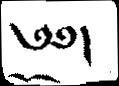༄༅།
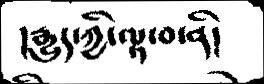།རྒྱུད་ཀྱིལྟ་བ་ནི།
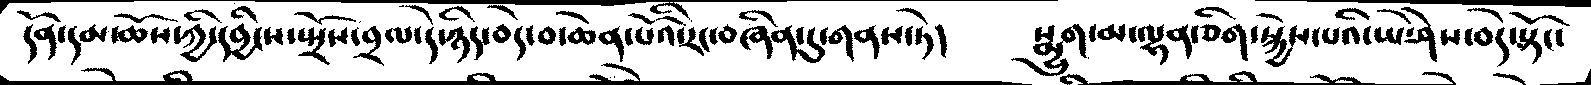དོན་དམ་ཆོས་ཀྱི་དབྱིངས་སྤྲོས་བྲལ་དེ་ཉིད་བདེ་བ་ཆེན་པོའི་རང་བཞིན་དུ་གནས་ཏེ།     སྨྱུག་མ་ལྷན་ཅིག་སྐྱེས་པའི་ཡེ་ཤེས་བདེ་སྟོང་
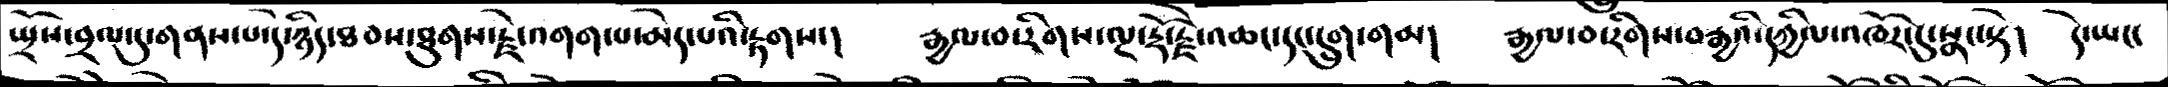སྤྲོས་བྲལ་དུ་གནས་པ་དེ་ཉིད་ཐབས་ཐུགས་རྗེ་འགག་པ་མེད་པའི་རྟགས།     རྒྱལ་བ་རིགས་ལྔ་རྡོ་རྗེ་འཆང་དང་དྲུག་གམ།    རྒྱལ་བ་རིགས་བརྒྱའི་དཀྱིལ་འཁོར་དུ་སྣང་སྟེ།   དེ་ཡང་
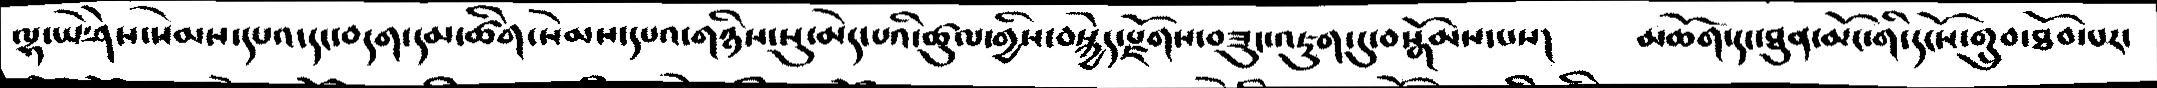ལྷ་ཡེ་ཤེས་སེམས་དཔའ་དང་བདག་དམ་ཚིག་སེམས་དཔའ་གཉིས་སུ་མེད་པའི་ཚུལ་གྱིས་བསྐྱེད་རྫོགས་བཟུང་འཇུག་དུ་བསྒོམས་པས།    མཆོག་དང་ཐུན་མོང་གི་དངོས་གྲུབ་ཐོབ་པར་
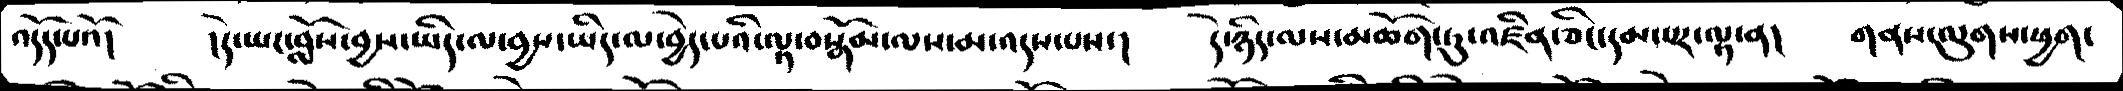འདོད་པའོ།    །དེ་ཡང་བློས་བྱས་ཡིད་ལ་བྱས་ཡིད་ལ་བྱེད་པའི་ལྟ་བསྒོམ་ལས་མ་འདས་པས་།    དེ་ཉིད་ལས་མཆོག་ཏུ་འཛིན་ཅིང་དམ་པར་ལྟ་ན།    གནས་ལུགས་ཕྱག་
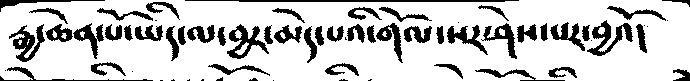རྒྱ་ཆེན་པོ་ཡིད་ལ་བྱར་མེད་པའི་གོལ་སར་ཤེས་པར་བྱའོ།
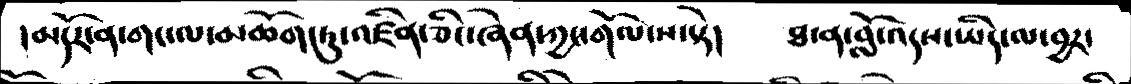།མདོར་ན་གང་ལ་མཆོག་ཏུ་འཛིན་ཅིང་ཞེན་ཀྱང་གོལ་ས་སྟེ།   ཐ་ན་བློ་འདས་ཡིད་ལ་བྱར་
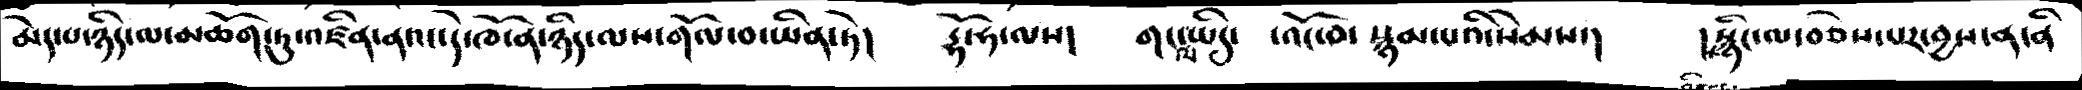མེད་པ་ཉིད་ལ་མཆོག་ཏུ་འཛིན་ནའང་དེ་ཁོ་ན་ཉིད་ལས་གོལ་བ་ཡིན་ཏེ།   རྡོ་ཧ་ལས།   གང་ལ་ཡིདུ་  འོང་བ་སྙམ་པའི་སེམས་།   སྙིང་ལ་བཅེས་པར་བྱས་ན་ནི་
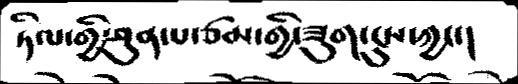ཏིལ་གྱི་ཤུན་པ་ཙམ་གྱི་ཟུག་ངུས་ཀྱང་།
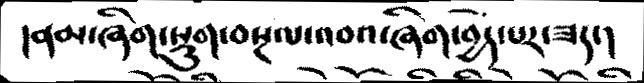ནམ་ཞིག་སྡུག་བསྔལ་འབའ་ཞིག་བྱེད་པར་ཟད་།
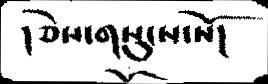།ཅེས་གསུངས་སོ།
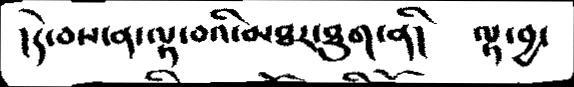།དེ་བས་ན་ལྟ་བའི་མཐར་ཐུག་ནི།  ལྟ་བྱ་
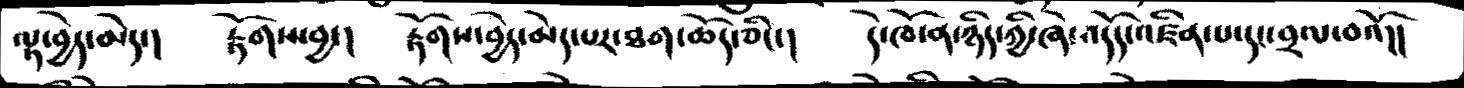ལྟ་བྱེད་མེད་།   རྟོགས་བྱ་།   རྟོགས་བྱེད་མེད་པར་ཐག་ཆོད་ཅིང་།   དེ་ཁོ་ན་ཉིད་ཀྱི་ཞེ་འདོད་འཛིན་པ་དང་བྲལ་བའོ།།
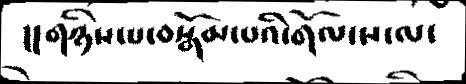།།གཉིས་པ་བསྒོམ་པའི་གོལ་ས་ལ་
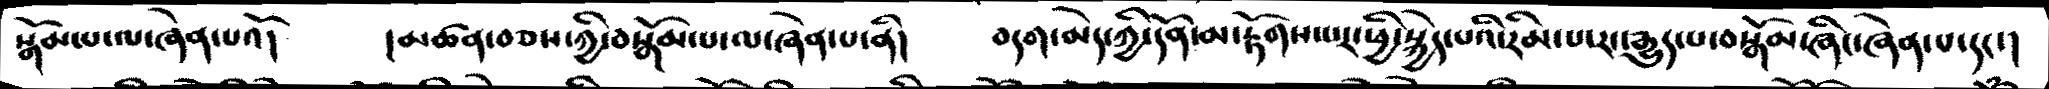སྒོམ་པ་ལ་ཞེན་པའོ།   །མཚན་བཅས་ཀྱི་བསྒོམ་པ་ལ་ཞེན་པ་ནི།   བདག་མེད་ཀྱི་དོན་མ་རྟོགས་པར་ཕྱི་སྐྱེད་པའི་རིམ་པ་རང་རྒྱུད་པ་བསྒོམ་ཞིང་ཞེན་པ་དང་།
